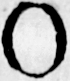0
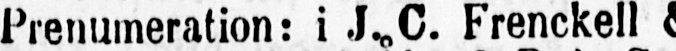Prenumeration: i J. C. Frenckell &
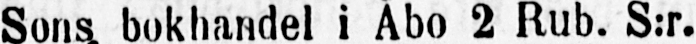Sons bokhandel i Åbo 2 Rub. S:r.
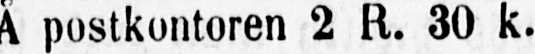Å postkontoren 2 R. 30 k.
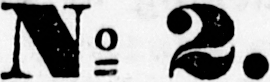N:o 2.
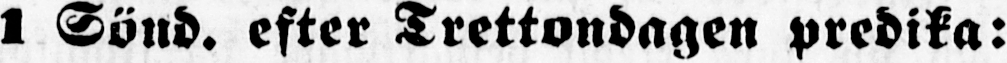1 Sönd. efter Trettondagen predika:
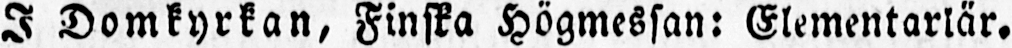I Domkyrkan, Finska Högmessan: Elementarlär.
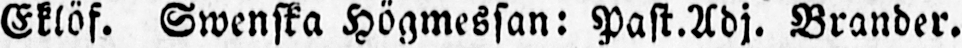Eklöf. Swenska Högmässan: Past.Adj. Brander.
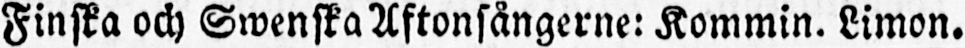Finska och Swenska Aftonsångerne: Kommin. Limon.
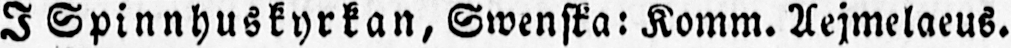I Spinnhuskyrkan, Swenska: Komm. Aejmelaeus.
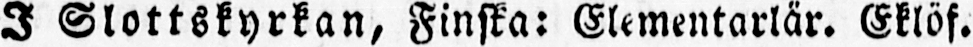I Slottskyrkan, Finska: Elementarlär. Eklöf.
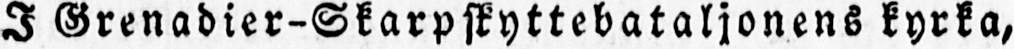I Grenadier-Skarpskyttebataljonens kyrka,
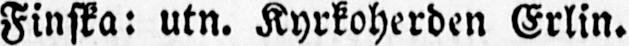Finska: utn. Kyrkoherden Erlin.
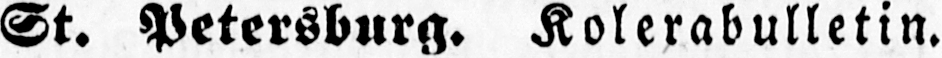St. Petersburg. Kolerabulletin.
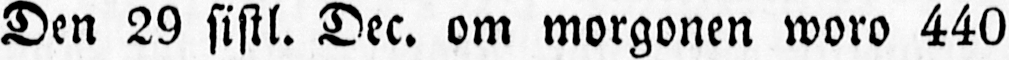Den 29 sistl. Dec. om morgonen woro 440
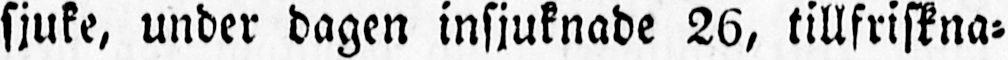sjuke, under dagen insjuknade 26, tillfriskna-
